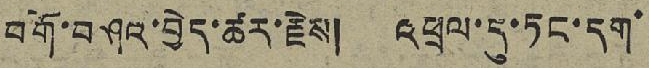བགོ་བཤའ་བྱེད་ཚར་རྗེས། འཕྲལ་དུ་ཏང་དག་
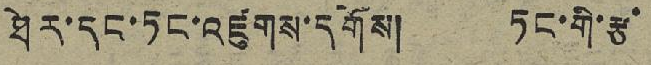ཐེར་དང་ཏང་འཛུགས་དགོས། ཏང་གི་རྩ་
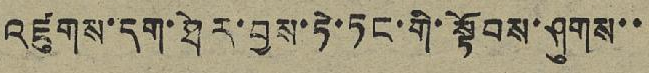འཛུགས་དག་ཐེར་བྱས་ཏེ་ཏང་གི་སྟོབས་ཤུགས་་
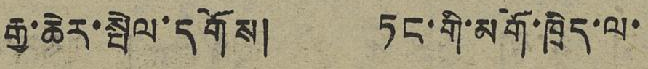རྒྱ་ཆེར་སྤེལ་དགོས། ཏང་གི་མགོ་ཁྲིད་ལ་
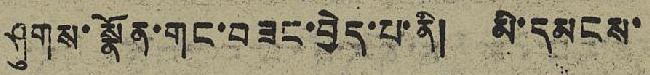ཤུགས་སྣོན་གང་བཟང་བྱེད་པ་ནི། མི་དམངས་
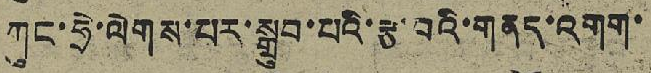ཀུང་ཧྲེ་ལེགས་པར་སྒྲུབ་པའི་རྩ་བའི་གནད་འགག་
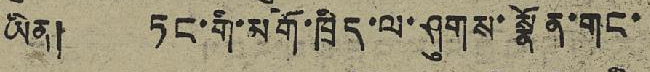ཡིན། ཏང་གི་མགོ་ཁྲིད་ལ་ཤུགས་སྣོན་གང་
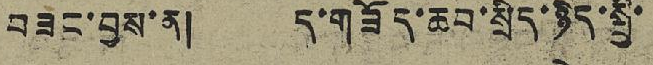བཟང་བྱས་ན། ད་གཟོད་ཆབ་སྲིད་ཉིད་སྤྱི་
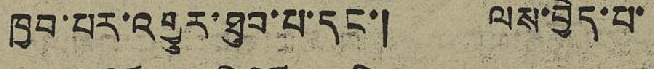ཁྱབ་པར་འགྱུར་ཐུབ་པ་དང་། ལས་བྱེད་པ་
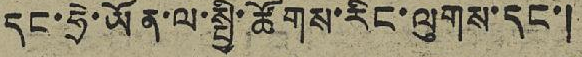དང་ཧྲེ་ཡོན་ལ་སྤྱི་ཚོགས་རིང་ལུགས་དང་།
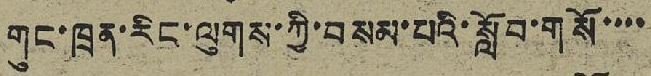གུང་ཁྲན་རིང་ལུགས་ཀྱི་བསམ་པའི་སློབ་གསོ་་་་
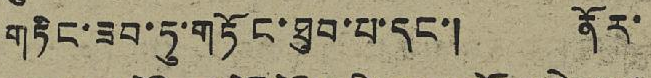གཏིང་ཟབ་ཏུ་གཏོང་ཐུབ་པ་དང་། ནོར་
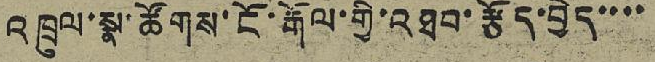འཁྲུལ་སྣ་ཚོགས་ངོ་རྒོལ་གྱི་འཐབ་རྩོད་བྱེད་་་་
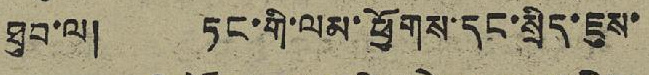ཐུབ་ལ། ཏང་གི་ལམ་ཕྱོགས་དང་སྲིད་ཇུས་
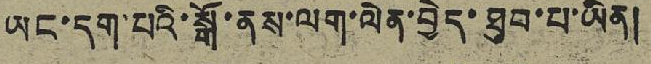ཡང་དག་པའི་སྒོ་ནས་ལག་ལེན་བྱེད་ཐུབ་པ་ཡིན།
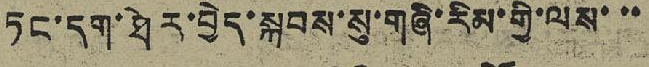ཏང་དག་ཐེར་བྱེད་སྐབས་སུ་གཞི་རིམ་གྱི་ལས་་་
